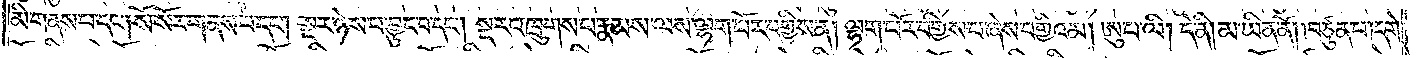མི་གནས་པ་དང༌། སོ་སོར་གནས་པ་དང༌། སྔར་ཉེས་པ་བྱུང་བ་དང༌། སྡར་འཁྲུགས་པ་རྣམས་ལས་ལྷག་པོར་བགྱིས་ན། ལྷག་པོར་བགྱིས་པ་ཞེས་བགྱིའམ། ཨུ་པ་ལི། དེ་ནི། མ་ཡིན་ནོ། །བཙུན་པ། དགེ་
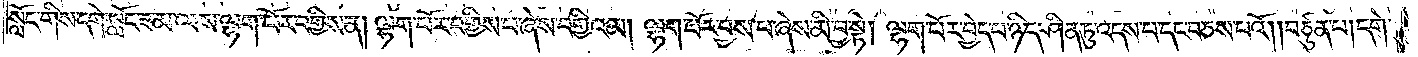སློང་གིས་དགེ་སློང་ཟ་མ་ལས་ལྷག་པོར་བགྱིས་ན། ལྷག་པོར་བགྱིས་པ་ཞེས་བགྱིའམ། ལྷག་པོར་བྱས་པ་ཞེས་མི་བྱ་སྟེ། ལྷག་པོར་བྱེད་པ་ཉིད་ཤིན་ཏུ་འདས་པ་དང་བཅས་པའོ། །བཙུན་པ། དགེ་
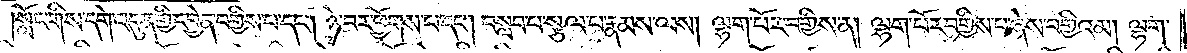།སློང་གིས་དགེ་འདུན་གྱི་དབྱེན་བགྱིས་པ་དང༌། ཉེ་བར་ཕྱོགས་པ་དང༌། བསླབ་པ་སྩལ་པ་རྣམས་ལས། ལྷག་པོར་བགྱིས་ན། ལྷག་པོར་བགྱིས་པ་ཞེས་བགྱིའམ། ལྷག་
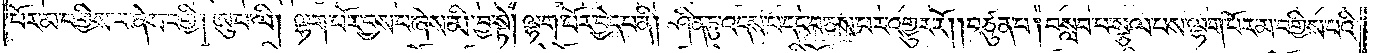པོར་མ་བགྱིས་པ་ཞེས་བགྱི། ཨུ་པ་ལི། ལྷག་པོར་བྱས་པ་ཞེས་མི་བྱ་སྟེ། ལྷག་པོར་བྱེད་པ་ནི། ཤིན་ཏུ་འདས་པ་དང་བཅས་པར་འགྱུར་རོ། །བཙུན་པ། བསླབ་པ་སྩལ་པས་ལྷག་པོར་མ་བགྱིས་པའི་
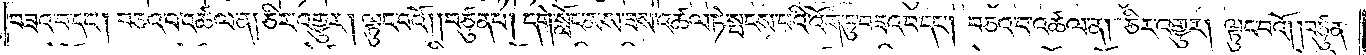བཟའ་བ་དང༌། བཅའ་བ་འཚལ་ན། ཅིར་འགྱུར། ལྟུང་བའོ། །བཙུན་པ། དགེ་སློང་མས་ཟས་འཚལ་ཏེ་སྤངས་པའི་འོག་ཏུ་བཟའ་བ་དང༌། བཅའ་བ་འཚལ་ན། ཅིར་འགྱུར། ལྟུང་བའོ། བཙུན་
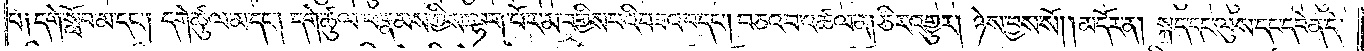པ། དགེ་སློབ་མ་དང༌། དགེ་ཚུལ་མ་དང༌། དགེ་ཚུལ་ཕ་རྣམས་ཀྱིས་ལྷག་པོར་མ་བགྱིས་པའི་བཟའ་བ་དང༌། བཅའ་བ་འཚལ་ན། ཅིར་འགྱུར། ཉེས་བྱས་སོ།    །མདོར་ན། སྐད་དང་ལུས་དང་དབེན་དེ་
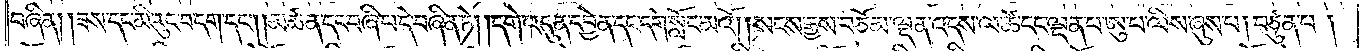བཞིན། །ཟས་དང་མི་རུང་བ་དག་དང༌། །མཚན་དང་བཞི་པ་དེ་བཞིན་ཏེ། །དགེ་འདུན་དབྱེན་དང་དགེ་སློང་མའོ། སངས་རྒྱས་བཅོམ་ལྡན་འདས་ལ་ཚེ་དང་ལྡན་པ་ཨུ་པ་ལིས་ཞུས་པ། བཙུན་པ།
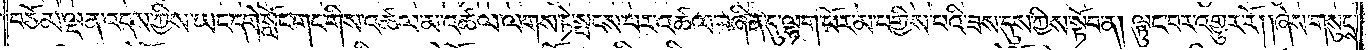བཅོམ་ལྡན་འདས་ཀྱིས་ཡང་དགེ་སློང་གང་གིས་འཚལ་མ་འཚལ་ལགས་ཏེ་སྤངས་པར་འཚལ་བཞིན་དུ་ལྷག་པོར་མ་བགྱིས་པའི་ཟས་དུས་ཀྱིས་སྟོབ་ན། ལྟུང་བར་འགྱུར་རོ། །ཞེས་གསུངས་
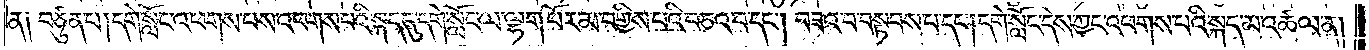ན། བཙུན་པ། དགེ་སློང་འཕགས་པས་འཕགས་པའི་སྐད་དུ་དགེ་སློང་ལ་ལྷག་པོར་མ་བགྱིས་པའི་བཅའ་བ་དང༌། བཟའ་བ་བསྟབས་པ་དང༌། དགེ་སློང་དེས་ཀྱང་འཕགས་པའི་སྐད་མ་འཚལ་ན།
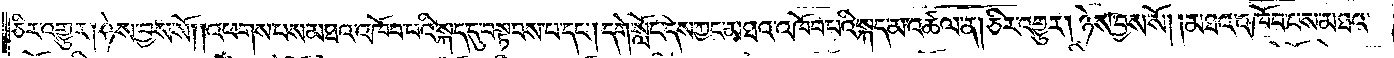ཅིར་འགྱུར། ཉེས་བྱས་སོ། །འཕགས་པས་མཐའ་འཁོབ་པའི་སྐད་དུ་བསྟབས་པ་དང༌། དགེ་སློང་དེས་ཀྱང་མཐའ་འཁོབ་པའི་སྐད་མ་འཚལ་ན། ཅིར་འགྱུར། ཉེས་བྱས་སོ། །མཐའ་འཁོབ་པས་མཐའ་
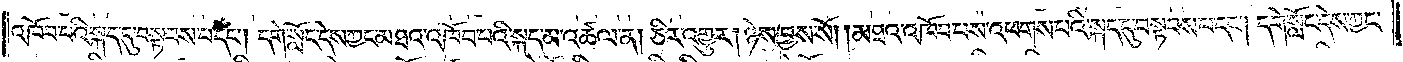འཁོབ་པའི་སྐད་དུ་བསྟབས་པ་དང༌། དགེ་སློང་དེས་ཀྱང་མཐའ་འཁོབ་པའི་སྐད་མ་འཚལ་ན། ཅིར་འགྱུར། ཉེས་བྱས་སོ། །མཐའ་འཁོབ་པས་འཕགས་པའི་སྐད་དུ་བསྟབས་པ་དང༌། དགེ་སློང་དེས་ཀྱང་
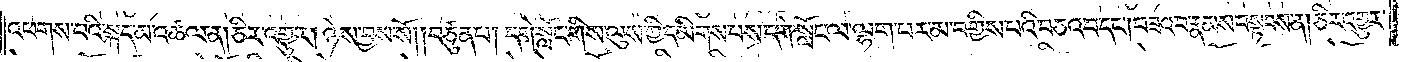འཕགས་པའི་སྐད་མ་འཚལ་ན། ཅིར་འགྱུར། ཉེས་བྱས་སོ། །བཙུན་པ། དགེ་སློང་གིས་ལུས་ཀྱི་དམིགས་པས་དགེ་སློང་ལ་ལྷག་པར་མ་བགྱིས་པའི་བཅའ་བ་དང༌། བཟའ་བ་རྣམས་བསྟབས་ན། ཅིར་འགྱུར་
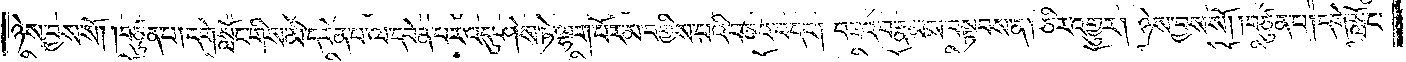ཉེས་བྱས་སོ། །བཙུན་པ། དགེ་སློང་གིས་མི་དབེན་པ་ལ་དབེན་པར་འདུ་ཤེས་ཏེ་ལྷག་པོར་མ་བགྱིས་པའི་བཅའ་བ་དང༌། བཟའ་བ་རྣམས་བསྟབས་ན། ཅིར་འགྱུར། ཉེས་བྱས་སོ། །བཙུན་པ། དགེ་སློང་
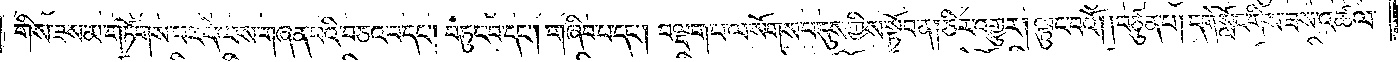གིས་ཟས་མ་གཏོགས་པར་དེ་ལས་གཞན་པའི་བཅའ་བ་དང༌། བཏུང་བ་དང༌། གཞིབ་པ་དང༌། བལྡག་པ་ལ་སོགས་པ་དུས་ཀྱིས་སྟོབ་ན། ཅིར་འགྱུར། ལྟུང་བའོ། བཙུན་པ། དགེ་སློང་གིས་ཟས་འཚལ་
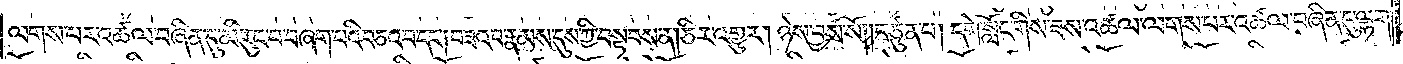ལགས་པར་འཚལ་བཞིན་དུ་མི་རུང་བ་བཞག་པའི་བཅའ་བ་དང༌།བཟའ་བ་རྣམས་དུས་ཀྱི་བསྟབས་ན།ཅིར་འགྱུར། ཉེས་བྱས་སོ༎བཙུན་པ། དགེ་སློང་གིས་ཟས་འཚལ་ལགས་པར་འཚལ་བཞིན་དུ་ལྷག་
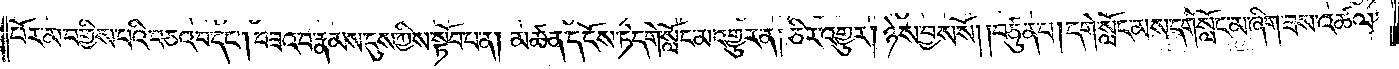པོར་མ་བགྱིས་པའི་བཅའ་བ་དང༌། བཟའ་བ་རྣམས་དུས་ཀྱིས་སྟོབ་པ་ན། མཚན་དངོས་ཏེ་དགེ་སློང་མ་འགྱུར་ན། ཅིར་འགྱུར། ཉེས་བྱས་སོ། །བཙུན་པ། དགེ་སློང་མས་དགེ་སློང་མ་ཞིག་ཟས་འཚལ་
